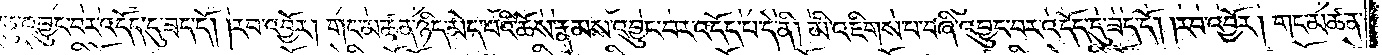བཅུ་འབྱུང་བར་འདོད་དུ་ཟད་དོ། །རབ་འབྱོར། གང་མཚན་ཉིད་མེད་པའི་ཆོས་རྣམས་འབྱུང་བར་འདོད་པ་དེ་ནི། མི་འཇིགས་པ་བཞི་འབྱུང་བར་འདོད་དུ་ཟད་དོ། །རབ་འབྱོར། གང་མཚན་
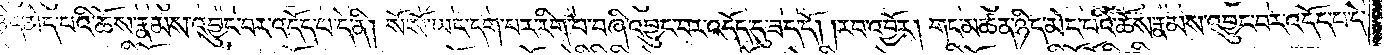ཉིད་མེད་པའི་ཆོས་རྣམས་འབྱུང་བར་འདོད་པ་དེ་ནི། སོ་སོ་ཡང་དག་པར་རིག་པ་བཞི་འབྱུང་བར་འདོད་དུ་ཟད་དོ། །རབ་འབྱོར། གང་མཚན་ཉིད་མེད་པའི་ཆོས་རྣམས་འབྱུང་བར་འདོད་པ་དེ་
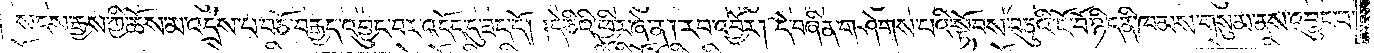སངས་རྒྱས་ཀྱི་ཆོས་མ་འདྲེས་པ་བཅོ་བརྒྱད་འབྱུང་བར་འདོད་དུ་ཟད་དོ། །དེ་ཅིའི་ཕྱིར་ཞེ་ན། རབ་འབྱོར། དེ་བཞིན་གཤེགས་པའི་སྟོབས་བཅུའི་ངོ་བོ་ཉིད་ནི་ཁམས་གསུམ་ནས་འབྱུང་བ་
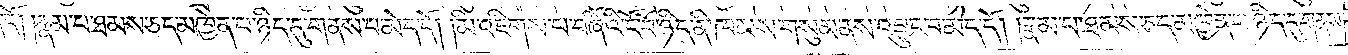མེད་དོ། །རྣམ་པ་ཐམས་ཅད་མཁྱེན་པ་ཉིད་དུ་གནས་པ་མེད་དོ། །མི་འཇིགས་པ་བཞིའི་ངོ་བོ་ཉིད་ནི་ཁམས་གསུམ་ནས་འབྱུང་བ་མེད་དོ། །རྣམ་པ་ཐམས་ཅད་མཁྱེན་པ་ཉིད་དུ་གནས་
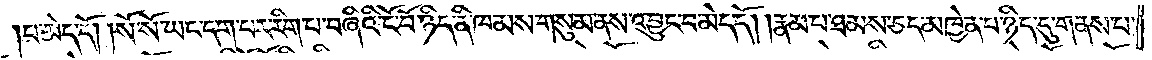པ་མེད་དོ། སོ་སོ་ཡང་དག་པར་རིག་པ་བཞིའི་ངོ་བོ་ཉིད་ནི་ཁམས་གསུམ་ནས་འབྱུང་བ་མེད་དོ། །རྣམ་པ་ཐམས་ཅད་མཁྱེན་པ་ཉིད་དུ་གནས་པ་
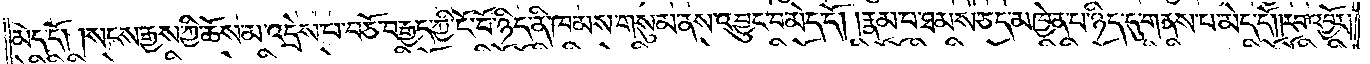མེད་དོ། །སངས་རྒྱས་ཀྱི་ཆོས་མ་འདྲེས་པ་བཅོ་བརྒྱད་ཀྱི་ངོ་བོ་ཉིད་ནི་ཁམས་གསུམ་ནས་འབྱུང་བ་མེད་དོ། །རྣམ་པ་ཐམས་ཅད་མཁྱེན་པ་ཉིད་དུ་གནས་པ་མེད་དོ། །རབ་འབྱོར།
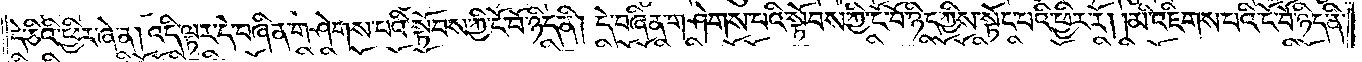དེ་ཅིའི་ཕྱིར་ཞེ་ན། འདི་ལྟར་དེ་བཞིན་གཤེགས་པའི་སྟོབས་ཀྱི་ངོ་བོ་ཉིད་ནི། དེ་བཞིན་གཤེགས་པའི་སྟོབས་ཀྱི་ངོ་བོ་ཉིད་ཀྱིས་སྟོང་པའི་ཕྱིར་རོ། །མི་འཇིགས་པའི་ངོ་བོ་ཉིད་ནི་
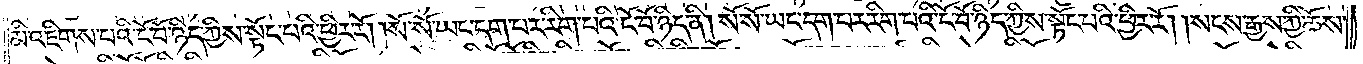མི་འཇིགས་པའི་ངོ་བོ་ཉིད་ཀྱིས་སྟོང་པའི་ཕྱིར་རོ། །སོ་སོ་ཡང་དག་པར་རིག་པའི་ངོ་བོ་ཉིད་ནི། སོ་སོ་ཡང་དག་པར་རིག་པའི་ངོ་བོ་ཉིད་ཀྱིས་སྟོང་པའི་ཕྱིར་རོ། །སངས་རྒྱས་ཀྱི་ཆོས་
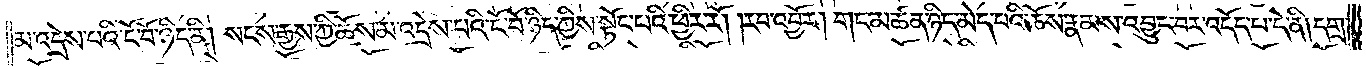མ་འདྲེས་པའི་ངོ་བོ་ཉིད་ནི། སངས་རྒྱས་ཀྱི་ཆོས་མ་འདྲེས་པའི་ངོ་བོ་ཉིད་ཀྱིས་སྟོང་པའི་ཕྱིར་རོ། །རབ་འབྱོར། གང་མཚན་ཉིད་མེད་པའི་ཆོས་རྣམས་འབྱུང་པར་འདོད་པ་དེ་ནི། དགྲ་
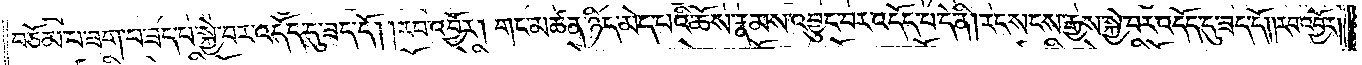བཅོམ་པ་ཟག་པ་ཟད་པ་སྐྱེ་བར་འདོད་དུ་ཟད་དོ། །རབ་འབྱོར། གང་མཚན་ཉིད་མེད་པའི་ཆོས་རྣམས་འབྱུང་བར་འདོད་པ་དེ་ནི། རང་སངས་རྒྱས་སྐྱེ་བར་འདོད་དུ་ཟད་དོ། །རབ་འབྱོར།
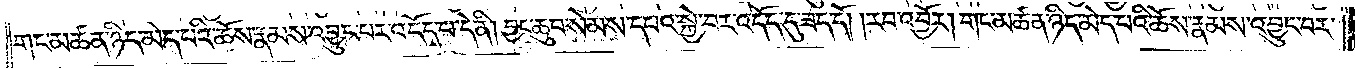གང་མཚན་ཉིད་མེད་པའི་ཆོས་རྣམས་འབྱུང་བར་འདོད་པ་དེ་ནི། བྱང་ཆུབ་སེམས་དཔའ་སྐྱེ་བར་འདོད་དུ་ཟད་དོ། །རབ་འབྱོར། གང་མཚན་ཉིད་མད་པའི་ཆོས་རྣམས་འབྱུང་བར་
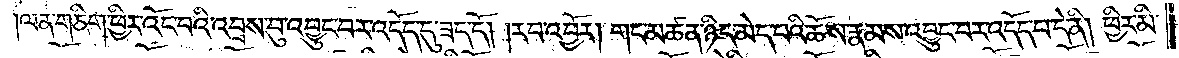ལན་ཅིག་ཕྱིར་འོང་བའི་འབྲས་བུ་འབྱུང་བར་འདོད་དུ་ཟད་དོ། །རབ་འབྱོར། གང་མཚན་ཉིད་མེད་པའི་ཆོས་རྣམས་འབྱུང་བར་འདོད་པ་དེ་ནི། ཕྱིར་མི་
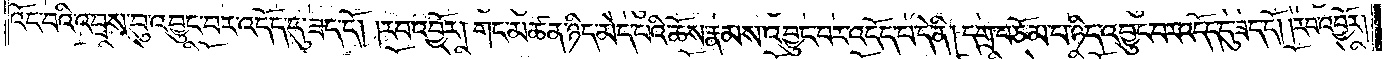འོང་བའི་འབྲས་བུ་འབྱུང་བར་འདོད་དུ་ཟད་དོ། །རབ་འབྱོར། གང་མཚན་ཉིད་མེད་པའི་ཆོས་རྣམས་འབྱུང་བར་འདོད་པ་དེ་ནི། དགྲ་བཅོམ་པ་ཉིད་འབྱུང་བར་འདོད་དུ་ཟད་དོ། །རབ་འབྱོར།
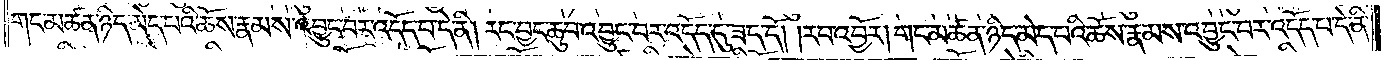གང་མཚན་ཉིད་མེད་པའི་ཆོས་རྣམས་འབྱུང་བར་འདོད་པ་དེ་ནི། རང་བྱང་ཆུབ་འབྱུང་བར་འདོད་དུ་ཟད་དོ། །རབ་འབྱོར། གང་མཚན་ཉིད་མེད་པའི་ཆོས་རྣམས་འབྱུང་བར་འདོད་པ་དེ་ནི་
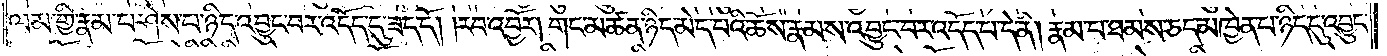ལམ་གྱི་རྣམ་པ་ཤེས་པ་ཉིད་འབྱུང་བར་འདོད་དུ་ཟད་དོ། །རབ་འབྱོར། གང་མཚན་ཉིད་མེད་པའི་ཆོས་རྣམས་འབྱུང་བར་འདོད་པ་དེ་ནི། རྣམ་པ་ཐམས་ཅད་མཁྱེན་པ་ཉིད་དུ་འབྱུང་
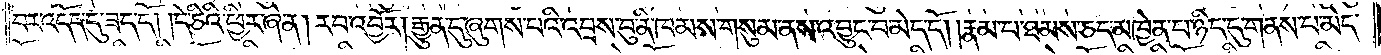བར་འདོད་དུ་ཟད་དོ། །དེ་ཅིའི་ཕྱིར་ཞེ་ན། རབ་འབྱོར། རྒྱུན་དུ་ཞུགས་པའི་འབྲས་བུ་ནི་ཁམས་གསུམ་ནས་འབྱུང་བ་མེད་དོ། །རྣམ་པ་ཐམས་ཅད་མཁྱེན་པ་ཉིད་དུ་གནས་པ་མེད་
